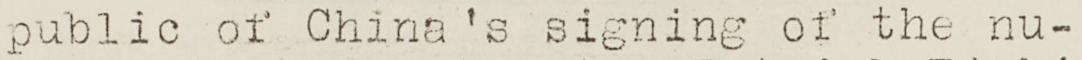public of China's signing of the nu-
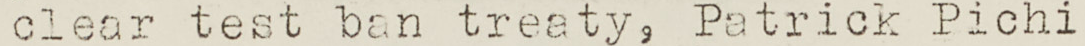clear test ban treat, Patrick Pichi
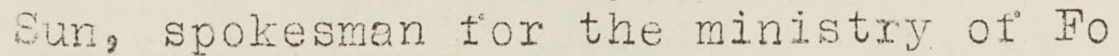Sun, spokesman for the ministry of Fo
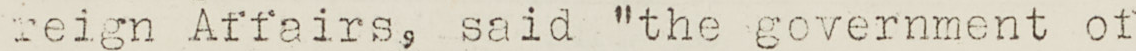reign Affairs, said "the government of
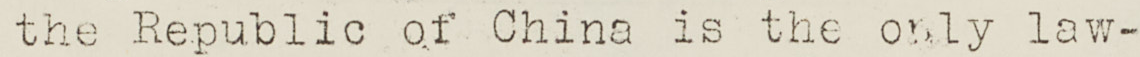the Republic of China is the only law
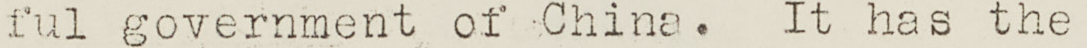ful government of China. It has the
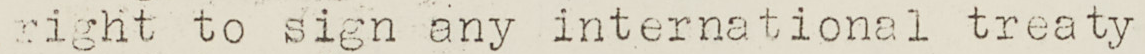right to sign any international treaty
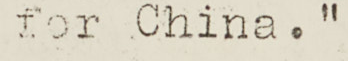for China."
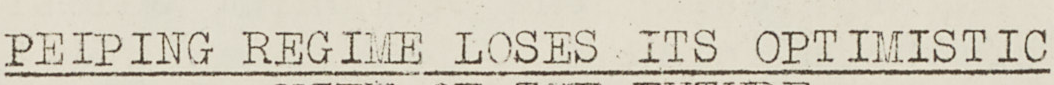PEIPING REGIME LOSES ITS OPTIMISTIC
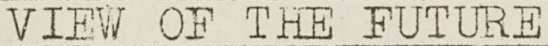VIEW OF THE FUTURE
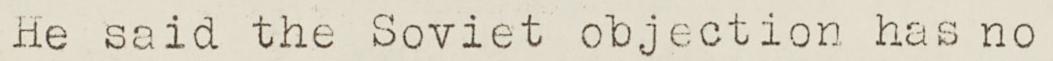He said the Soviet objection has no
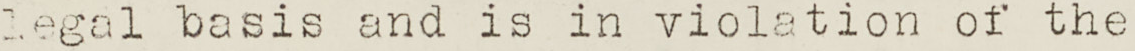legal basis and is in violation of the
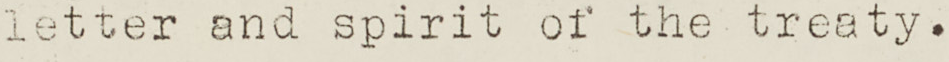letter and spirit of the treaty.
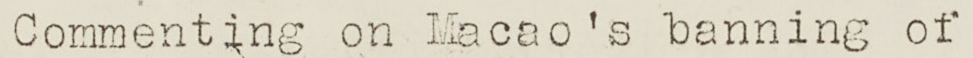Commenting on Macao's banning of
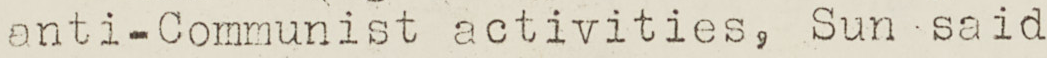anti-Communist activities, Sun said
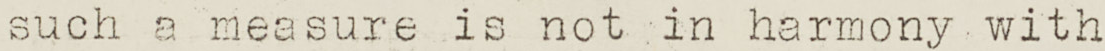such a measure is not in harmony with
